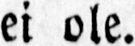ei ole.
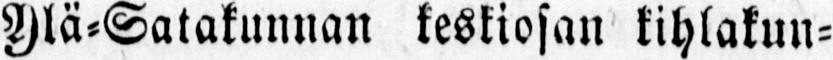Ylä-Satakunnan keskiosan kihlakun-
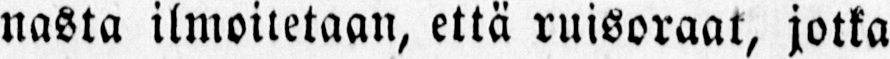nasta ilmoitetaan, että ruisoraat, jotka
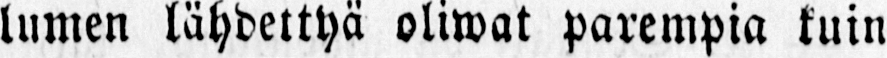lumen lähdettyä oliwat parempia kuin
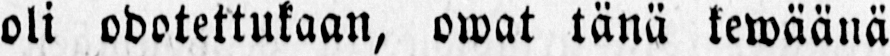oli odotettukaan, owat tänä kewäänä
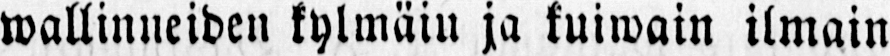wallinneiden kylmäin ja tuiwain ilmain
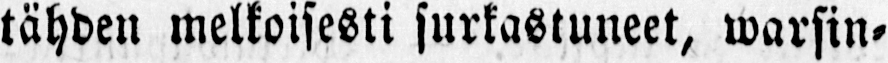tähden melkoisesti surkastuneet, warsin-
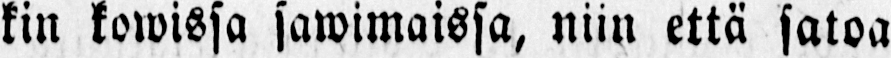kin kowissa sawimaissa, niin että satoa
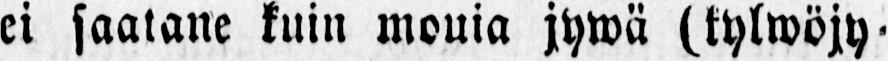ei saatane kuin mouia jywä (kylwöjy-
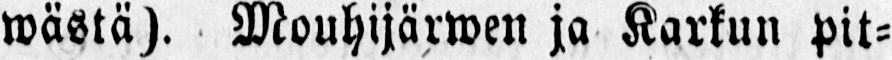wästä). Mouhijärwen ja Karkun pit-
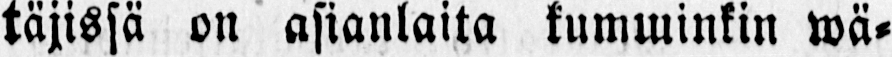täjissä on asianlaita kumminkin wä-
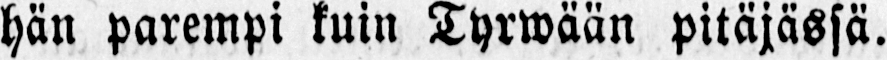hän parempi kuin Tyrwään pitäjässä.
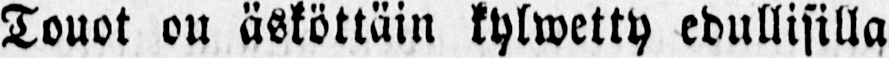Touot on äsköttäin kylwetty edullisilla
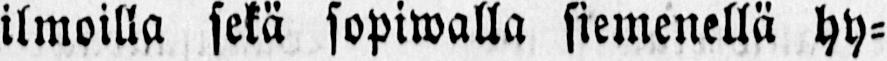ilmoilla sekä sopiwalla siemenellä hy-
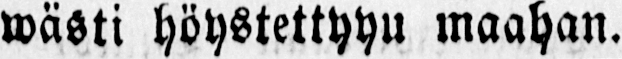wästi höystettyyn maahan.
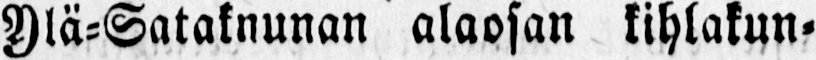Ylä-Sataknunan alaosan kihlakun-
